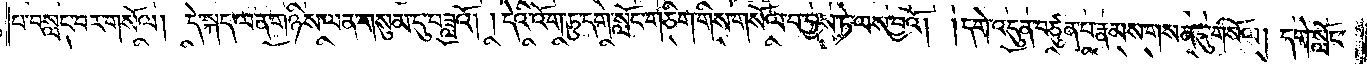པ་བསླང་བར་གསོལ། དེ་སྐད་ལན་གཉིས་ལན་གསུམ་དུ་བཟླའོ། །དེའི་འོག་ཏུ་དགེ་སློང་གཅིག་གིས་གསོལ་བ་བྱས་ཏེ་ལས་བྱའོ། །དགེ་འདུན་བཙུན་པ་རྣམས་གསན་དུ་གསོལ། དགེ་སློང་
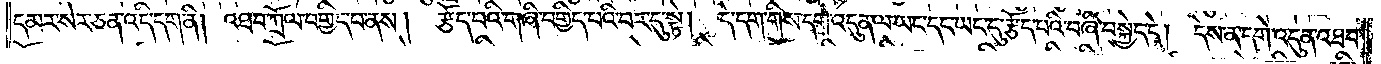དམར་སེར་ཅན་འདི་དག་ནི། འཐབ་ཀྲོལ་བགྱིད་བ་ནས། རྩོད་པའི་གཞི་བགྱིད་པའི་བར་དུ་སྟེ། དེ་དག་གིས་དགེ་འདུན་ལ་ཡང་དང་ཡང་དུ་རྩོད་པའི་བཞི་བསྐྱེད་དེ། དེས་ན་དགེ་འདུན་འཐབ་
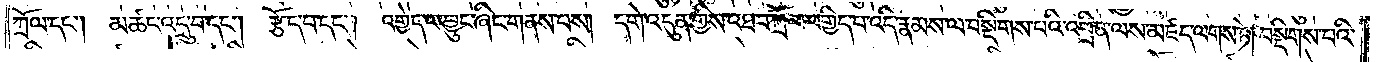ཀྲོལ་དང༌། མཚང་འདྲུ་བ་དང༌། རྩོད་པ་དང༌། འགྱེད་པ་བྱུང་ཞིང་གནས་པས། དགེ་འདུན་གྱིས་འཐབ་ཀྲོལ་བགྱིད་པ་འདི་རྣམས་ལ་བསྡིགས་པའི་འཕྲིན་ལས་མཛད་ལགས་ཏེ། བསྡིགས་པའི་
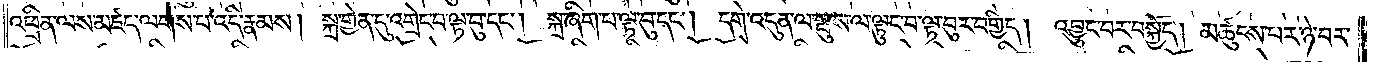འཕྲིན་ལས་མཛད་ལགས་པ་འདི་རྣམས། སྐྲ་གྱེན་དུ་འགྲེང་བ་ལྟ་བུ་དང༌། སྐྲ་ཞིག་པ་ལྟ་བུ་དང༌། དགེ་འདུན་ལ་སྤུས་ལ་ལྟུང་བ་ལྟ་བུར་བགྱིད། འབྱུང་བར་བསྐྱོད། མཚུངས་པར་ཉེ་བར་
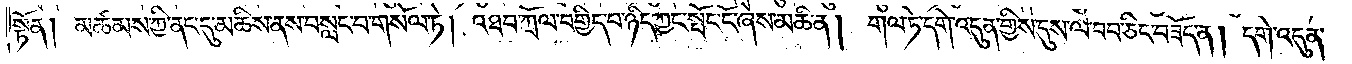སྟོན། མཚམས་ཀྱི་ནང་དུ་མཆིས་ནས་བསླང་བ་གསོལ་ཏེ། འཐབ་ཀྲོལ་བགྱིད་བ་ཉིད་ཀྱང་སྤོང་ངོ་ཞེས་མཆི་ན། གལ་ཏེ་དགེ་འདུན་གྱིས་དུས་ལ་བབ་ཅིང་བཟོད་ན། དགེ་འདུན་
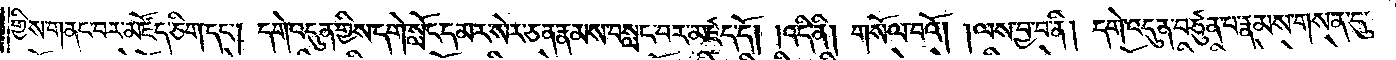གྱིས་གནང་བར་མཛོད་ཅིག་དང༌། དགེ་འདུན་གྱིས་དགེ་སློང་དམར་སེར་ཅན་རྣམས་བསླང་བར་མཛད་དོ། །འདི་ནི། གསོལ་བའོ། །ལས་བྱ་བ་ནི། དགེ་འདུན་བཙུན་པ་རྣམས་གསན་དུ་
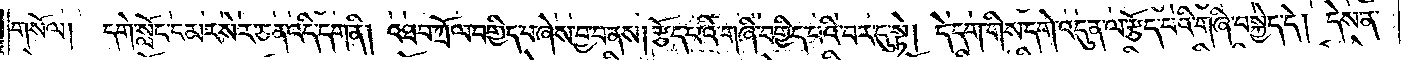གསོལ། དགེ་སློང་དམར་སེར་ཅན་འདི་དག་ནི། འཐབ་ཀྲོལ་བགྱིད་པ་ཞེས་བྱ་བ་ནས། རྩོད་པའི་གཞི་བགྱིད་པའི་བར་དུ་སྟེ། དེ་དག་གིས་དགེ་འདུན་ལ་རྩོད་པའི་གཞི་བསྐྱེད་དེ། དེས་ན་
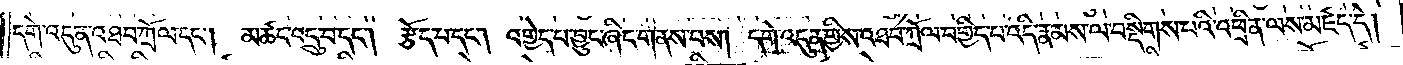དགེ་འདུན་འཐབ་ཀྲོལ་དང༌། མཚང་འདྲུ་བ་དང༌། རྩོད་པ་དང༌། འགྱེད་པ་བྱུང་ཞིང་གནས་པས། དགེ་འདུན་གྱིས་འཐབ་ཀྲོལ་བགྱིད་པ་འདི་རྣམས་ལ་བསྡིགས་པའི་འཕྲིན་ལས་མཛད་དེ།
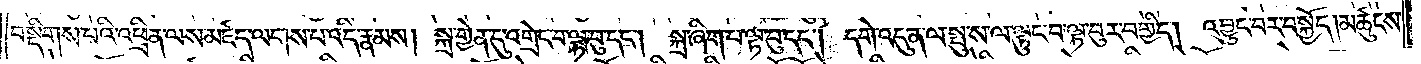བསྡིགས་པའི་འཕྲིན་ལས་མཛད་ལགས་པ་འདི་རྣམས། སྐྲ་གྱེན་དུ་འགྲེང་བ་ལྟ་བུ་དང༌། སྐྲ་ཞིག་པ་ལྟ་བུ་དང༌། དགེ་འདུན་ལ་སྤུ་ས་ལ་ལྟུང་བ་ལྟ་བུར་བགྱིད། འབྱུང་བར་བསྐྱོད། མཚུངས་
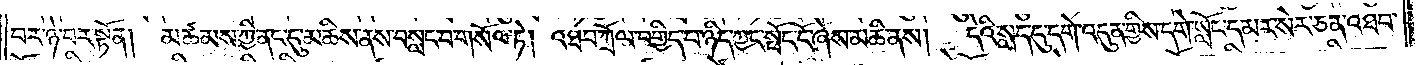བར་ཉེ་བར་སྟོན། མཚམས་ཀྱི་ནང་དུ་མཆིས་ནས་བསླང་བ་གསོལ་ཏེ། འཐབ་ཀྲོལ་བགྱིད་པ་ཉིད་ཀྱང་སྤོང་ངོ་ཞེས་མཆི་ནས། དེའི་སླད་དུ་དགེ་འདུན་གྱིས་དགེ་སློང་དམར་སེར་ཅན་འཐབ་
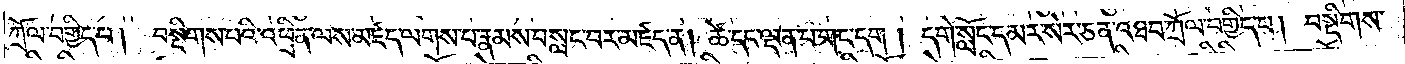ཀྲོལ་བགྱིད་པ། བསྡིགས་པའི་འཕྲིན་ལས་མཛད་ལགས་པ་རྣམས་བསླང་བར་མཛད་ན། ཚེ་དང་ལྡན་པ་གང་དག། དགེ་སློང་དམར་སེར་ཅན་འཐབ་ཀྲོལ་བགྱིད་པ། བསྡིགས་
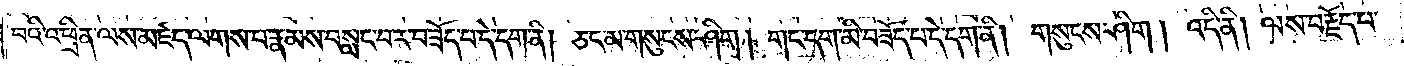བའི་འཕྲིན་ལས་མཛད་ལགས་པ་རྣམས་བསླང་བར་བཟོད་པ་དེ་དག་ནི། ཅང་མ་གསུངས་ཤིག། གང་དག་མི་བཟོད་པ་དེ་དག་ནི། གསུངས་ཤིག། འདི་ནི། ལས་བརྗོད་པ་
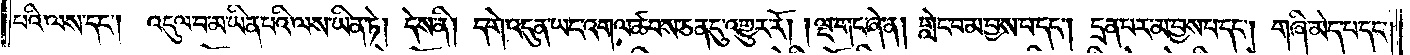པའི་ལས་དང༌། འདུལ་པ་མ་ཡིན་པའི་ལས་ཡིན་ཏེ། དེས་ནི། དགེ་འདུན་ཡང་འགལ་ཚབས་ཅན་དུ་འགྱུར་རོ། །ལྔ་གང་ཞེ་ན། གླེང་བ་མ་བྱས་པ་དང༌། དྲན་པར་མ་བྱས་པ་དང༌། གཞི་མེད་པ་དང་།
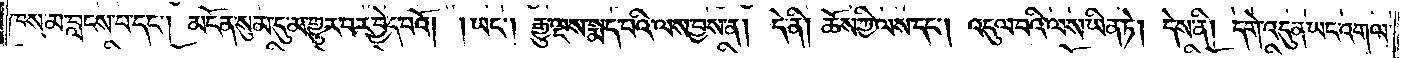ཁས་མ་བླངས་པ་དང༌། མངོན་སུམ་དུ་མ་གྱུར་པར་བྱེད་པའོ། །ཡང༌། རྒྱུ་ལྔས་སྨད་པའི་ལས་བྱས་ན། དེ་ནི། ཆོས་ཀྱི་ལས་དང༌། འདུལ་བའི་ལས་ཡིན་ཏེ། དེས་ནི། དགེ་འདུན་ཡང་འགལ་
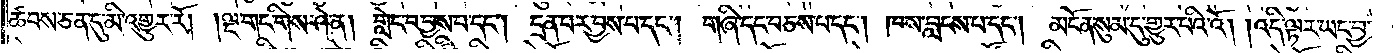ཚབས་ཅན་དུ་མི་འགྱུར་རོ། །ལྔ་གང་གིས་ཤེ་ན། གླེང་བ་བྱས་པ་དང༌། དྲན་པར་བྱས་པ་དང༌། གཞི་དང་བཅས་པ་དང༌། ཁས་བླངས་པ་དང༌། མངོན་སུམ་དུ་གྱུར་པའི་འོ། །འདི་ལྟར་ཡང་བྱ་
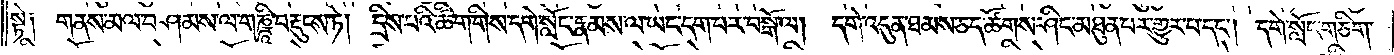སྟེ༑ གནས་མལ་བཤམས་ལ་གཎྜཱི་བརྡུངས་ཏེ། དྲིས་པའི་ཚིག་གིས་དགེ་སློང་རྣམས་ལ་ཡང་དག་པར་བསྒོ་ལ། དགེ་འདུན་ཐམས་ཅད་ཚོགས་ཤིང་མཐུན་པར་གྱུར་པ་དང༌། དགེ་སློང་གཅིག་
